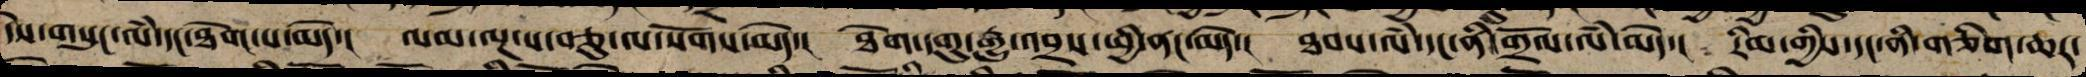དེས་གསུང་ལཾ་དང་ཐེག་པ་མེད་། ལམ་ལྔ་ས་བཅུ་ལ་སོགས་མེད་། ཐེག་དགུ་རྒྱུ་འབྲས་ཕྱི་ནང་མེད་། ཐབས་ལཾ་དང་ནི་གྲོལ་ལཾ་མེད་། རིམ་གྱིས་དང་ནི་གཅིག་ཆར་
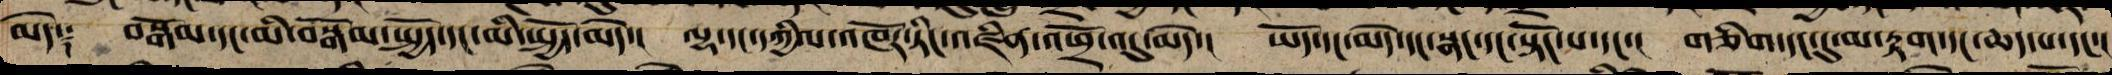མེད༑ བསྒོམ་དང་མི་བསྒོམ་སྤྱོད་དང་མི་སྤྱོད་མེད་། ལྷ་དང་དཀྱིལ་འཁོར་ཏིང་འཛིན་འཕྲོ་འདུ་མེད་། ཡོད་དང་མེད་དང་སྣང་དང་སྟོང་པ་དང་། གཅིག་དང་དུ་མ་རྟག་དང་ཆད་པ་དང་།
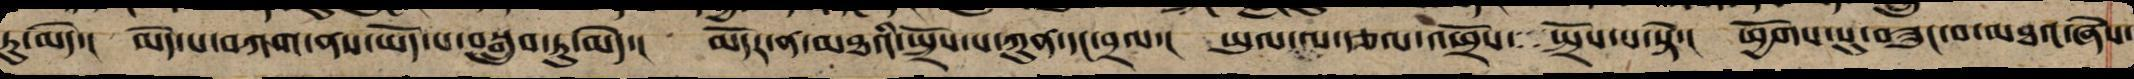ཏུ་མེད་། མེད་པ་བཀག་ནས་ཡོད་པ་བསྒྲུབ་ཏུ་མེད་། མདོར་ན་མཐའི་སྤྲོས་པ་ཀུན་དང་བྲལ་། ཡུལ་ལ་རྩལ་འཕྲོས་ སྤྲོས་པ་སྟེ་། ཕྱོགས་སུ་བཟུང་བ་མཐའ་ཞེས་
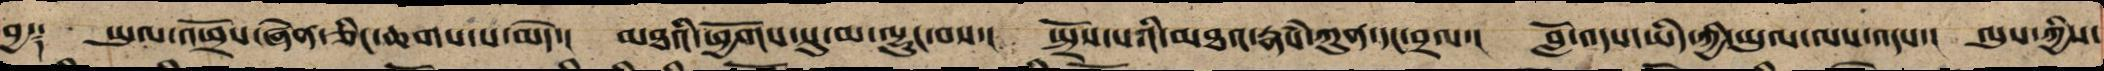བྱ༑ ཡུལ་འཕྲོས་ཞེན་ཅིང་ཆགས་པ་མེད་། མཐའི་ཕྱོགས་སུ་མ་ལྷུང་བས་། སྤྲོས་པའི་མཐའ་རྣཾས་ཀུན་དང་བྲལ་། བློ་འདས་ཡིད་ཀྱི་ཡུལ་ལས་འདས་། ལུས་ཀྱིས་
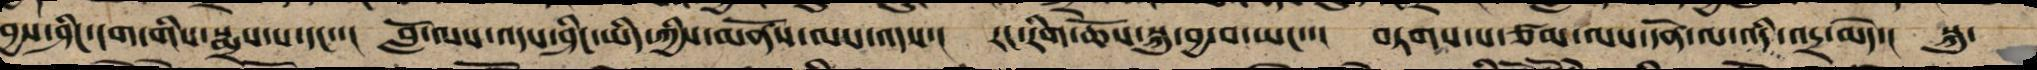བྱས་ཤིང་ངག་གིས་སྨྲས་པ་དང་་། བློ་ལས་འདས་ཤིང་ཡིད་ཀྱིས་མནོས་ལས་འདས་། རང་རིག་ཆོས་སྐུ་བྱ་བ་ཡང་་། བཏགས་པ་ཙམ་ལས་དོན་ལ་འདི་འདྲ་མེད་། སྐུ་
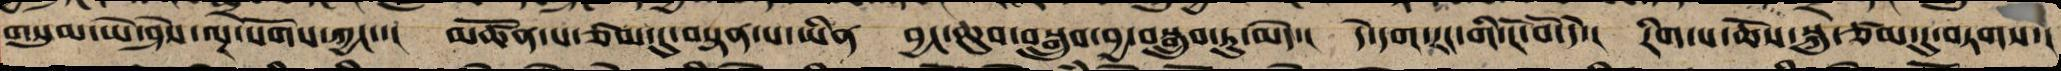གསུམ་ཡེ་ཤེས་ལྔ་སོགས་ཀྱང་་། མཚོན་པ་ཙམ་དུ་བསྟན་པ་ཡིན བྱང་ཆུབ་བསྒྲུབ་བྱ་བསྒྲུབ་ཏུ་མེད་། དེ་དག་རང་གི་ངོ་བོ་དེ་། རིག་པ་ཆོས་སྐུ་ཙམ་དུ་བཏགས་།
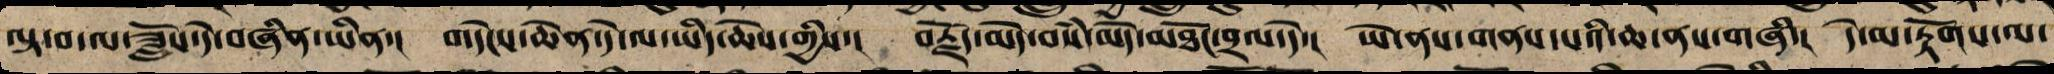ལྟ་བ་ལ་ཟློས་དེ་བཞིན་ཡིན་། གདེངས་ཆེན་དེ་ལ་ཡིད་ཆེས་གྱིས་། བརྗོད་མེད་བསཾ་མེད་མཐོང་བྲལ་དེ་། ཡེ་ནས་གནས་པའི་ཆ་ནས་གཞི་། དེ་མ་རྟོགས་ལ་
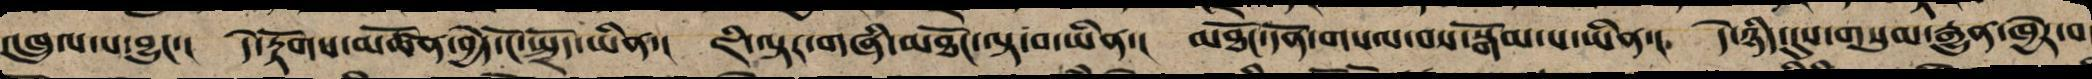འཁྲུལ་པ་བྱུང་། དེ་རྟོགས་མཚོན་བྱེད་ངོ་སྤྲོད་ཡིན་། ཇི་ལྟར་གཞི་མཐོང་ལྟ་བ་ཡིན་། མཐོང་དོན་གསལ་བས་སྒོམ་པ་ཡིན་། དེ་ཉིད་དུས་གསུམ་རྒྱུན་ཁྱེར་བ་
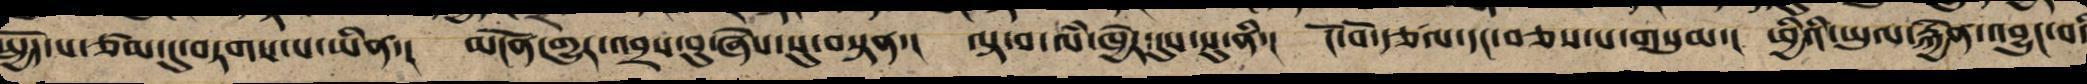སྤྱོད་པ་ཙམ་དུ་བཏགས་པ་ཡིན་། མངོན་གྱུར་འབྲས་བུ་ཞེས་སུ་བསྟན་། ལྟ་བ་ལཾ་ཁྱེར་དུས་སུ་ནི་། ངོ་བོ་རྩལ་དང་བཅས་པ་གསུམ་། ཕྱིའི་ཡུལ་རྐྱེན་འབྱུང་བ
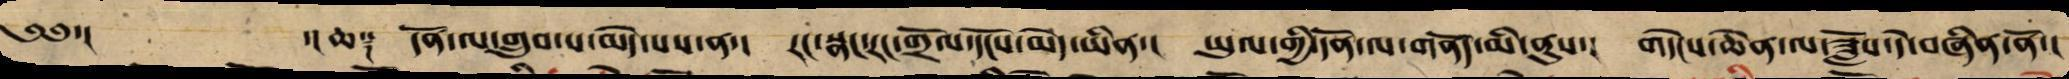༄༅་། ་། ཆ༑ དོན་ལ་གྲུབ་པ་མེད་པས་ན་། རང་སྣང་རང་གྲོལ་དངོས་མེད་ཡིན་། ཡུལ་གྱི་དོན་ལ་གནོད་མི་ནུས་། གདེངས་ཆེན་ལ་ཟློས་དེ་བཞིན་ནོ་།
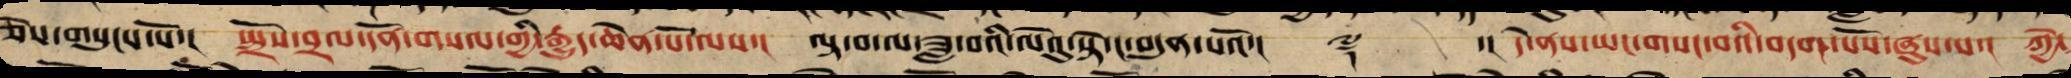ཅེས་གསུངས་སོ་། སྤྲོས་བྲལ་དོན་གསལ་གྱི་རྒྱུད་ཆེན་པོ་ལས་། ལྟ་བ་ལ་ཟླ་བའི་ལེའུ་སྟེ་ང་བདུན་པའོ་།། ༈ ་། དེ་ནས་ཡང་གསང་བའི་བདག་པོས་ཞུས་པ་། ཀྱེ་
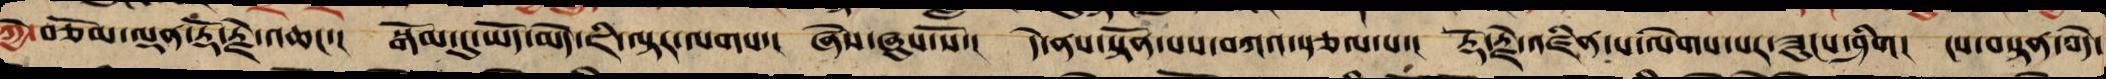ཀྱེ་བཅོམ་ལྡན་རྡོ་རྗེ་འཆང་། སྒོམ་དུ་ཡོད་མེད་ཇི་ལྟར་ལགས་། ཞེས་ཞུས་སོ་། དེ་ནས་སྟོན་པས་བཀའ་སྩལ་པ་། རྡོ་རྗེ་འཛིན་པ་ལེགས་པར་ཟུངས་ཤིག། ངས་བསྟན་བདེ་
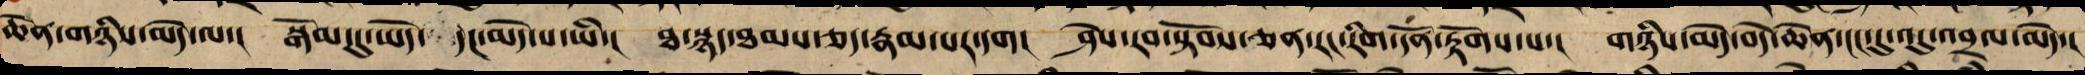ཆེན་གཉིས་མེད་ལ་། སྒོམ་དུ་ཡོད་ དང་མེད་པ་ཡི་། ཐ་སྙད་ཐམས་ཅད་རྣམ་པར་དག། ཤེས་རབ་སྟོབས་ཅན་རང་རིག་དོན་རྟོགས་པ་། གཉིས་མེད་བདེ་ཆེན་ངང་དུ་འདུ་བྲལ་མེད་།
